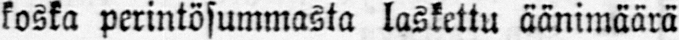koska perintösummasta laskettu äänimäärä
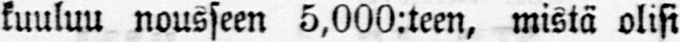kuuluu nousseen 5,000:teen, mistä olisi
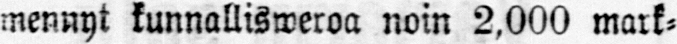mennyt kunnallisweroa noin 2,000 mark-
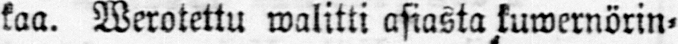kaa. Werotettu walitti asiasta kuwernörin-
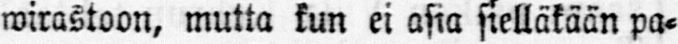wirastoon, mutta kun ei asia sielläkään pa-
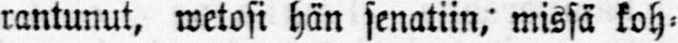rantunut, wetosi hän senatiin, missä koh-
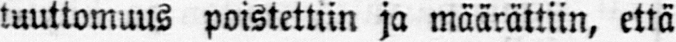tuuttomuus poistettiin ja määrättiin, että
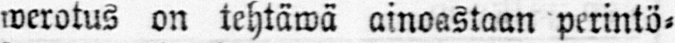werotus on tehtäwä ainoastaan perintö-
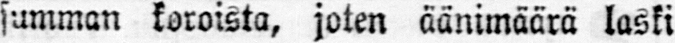summan koroista, joten äänimäärä laski
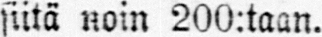siitä noin 200:taan.
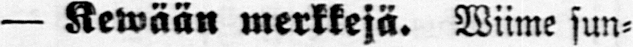— Kewään merkkejä. Wiime sun-
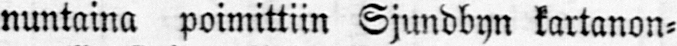nuntaina poimittiin Sjundbyn kartanon-
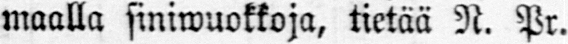maalla siniwuokkoja, tietää N. Pr.
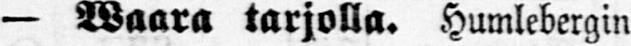— Waara tarjolla. Humlebergin
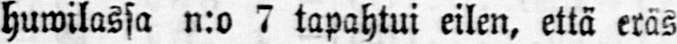huwilassa n:o 7 tapahtui eilen, että eräs
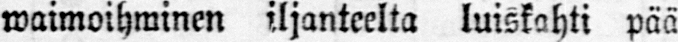waimoihminen iljanteelta luiskahti pää
